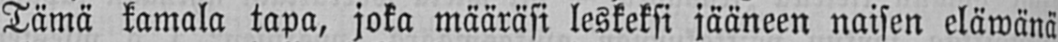Tämä kamala tapa, joka määräsi leskeksi jääneen naisen eläwänä
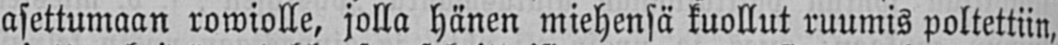asettumaan rowiolle, jolla hänen miehensä kuollut ruumis poltettiin,
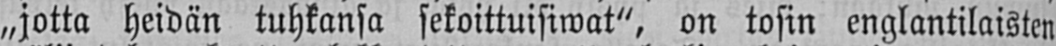„jotta heidän tuhkansa sekoittuisiwat", on tosin englantilaisten
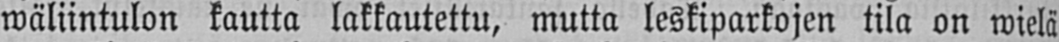wäliintulon kautta lakkautettu, mutta leskiparkojen tila on wielä
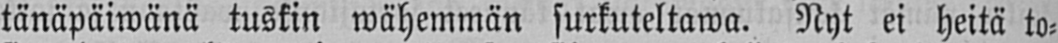tänäpäiwänä tuskin wähemmän surkuteltawa. Nyt ei heitä to-
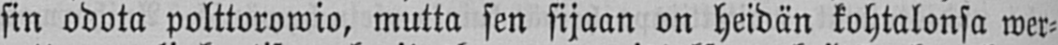sin odota polttorowio, mutta sen sijaan on heidän kohtalonsa wer-
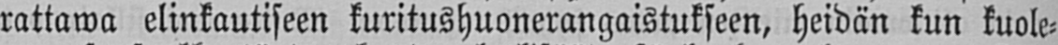rattawa elinkautiseen kuritushuonerangaistukseen, heidän kun kuole-
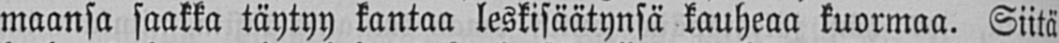maansa saakka täytyy kantaa leskisäätynsä kauheaa kuormaa. Siitä
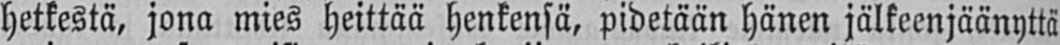hetkestä, jona mies heittää henkensä, pidetään hänen jälkeenjäänyttä
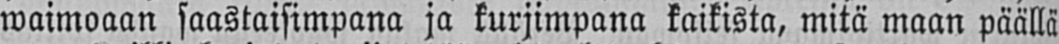waimoaan saastaisimpana ja kurjimpana kaikista, mitä maan päällä
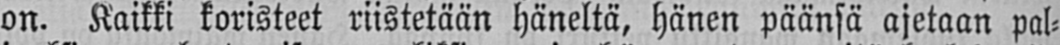on- Kaikki koristeet riistetään häneltä, hänen päänsä ajetaan pal-
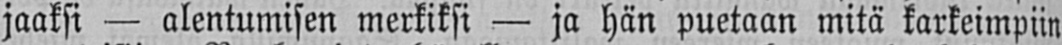jaaksi — alentumisen merkiksi — ja hän puetaan mitä tärkeimpiin
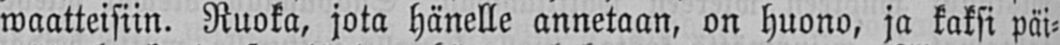waatteisiin. Ruoka, jota hänelle annetaan, on huono, ja kaksi päi-
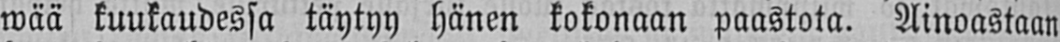wää kuukaudessa täytyy hänen kokonaan paastota. Ainoastaan
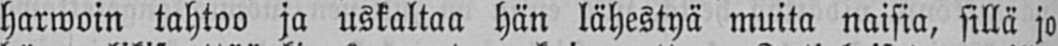harwoin tahtoo ja uskaltaa hän lähestyä muita naisia, sillä jo
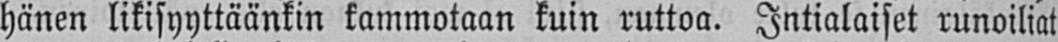hänen likisyyttäänkin kammotaan kuin ruttoa. Intialaiset runoiliat
